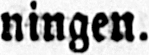ningen.
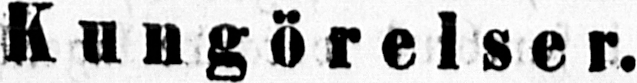Kungörelser.
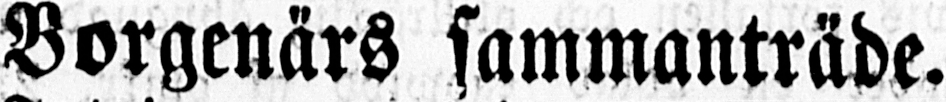Borgenärs sammanträde.
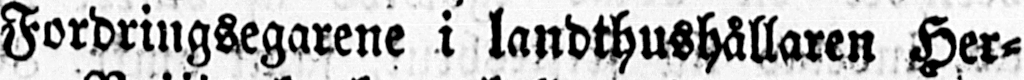Fordringsegarene i landthushållaren Her-
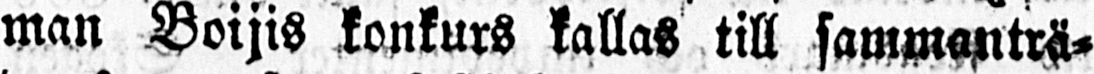man Boijis konkurs kallas till sammanträ-
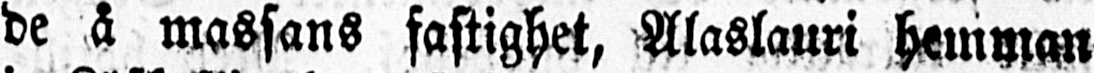de å massans fastighet, Alaslauri hemman
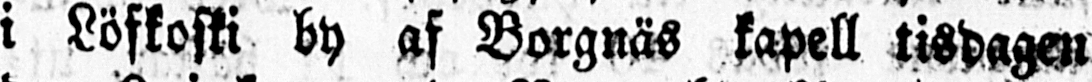i Löfkoski by af Borgnäs kapell tisdagen
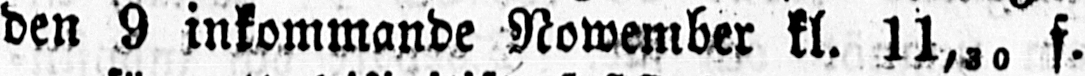den 9 inkommande Nowember kl. 11,30 f.
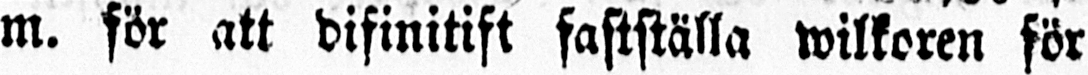m. för att difinitift fastställa wilkoren för
